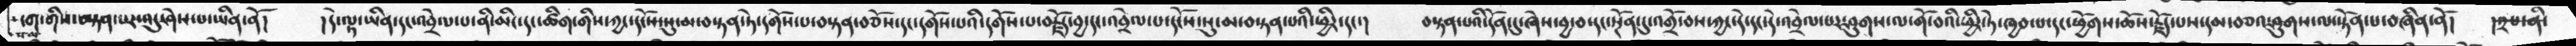པ་ལ་ངག་གིས་བསྟན་པར་འདུ་ཤེས་པ་ཡིན་ནོ།    །དེ་ལྟ་ཡིན་དང་འབྲེལ་པ་ནི་མིང་དང་ཚིག་གིས་ཀྱང་དངོས་སུ་མ་བསྟན་ཏེ་དགོས་པ་བསྟན་བཅོས་དང་དགོས་པའི་དགོས་པ་བརྗོད་བྱ་དང་འབྲེལ་པ་དངོས་སུ་མ་བསྟན་པའི་ཕྱིར་དང་།    བསྟན་པའི་དོན་དུ་ཞེས་བྱ་བ་དང་སྔོན་དུ་འགྲོ་བས་ཀྱང་དེ་དང་དེ་འབྲེལ་པར་ཤུགས་ལ་གོ་བའི་ཕྱིར་ཏེ་ཁྱབ་པ་དང་ཕྱོགས་ཆོས་རྗོད་པས་དམ་བཅའ་ཤུགས་ལ་སྟོན་པ་བཞིན་ནོ།   །༢་པ་ནི་
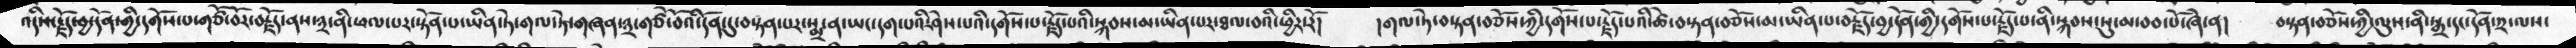འདིས་རྗོད་བྱ་དོན་གྱི་དགོས་པ་གཙོ་བོར་བརྗོད་ནས་༣་ནི་ཕལ་པར་སྟོན་པ་ཡིན་ཏེ་གལ་ཏེ་གཞན་༣་གཙོ་བོའི་དོན་དུ་བསྟན་པར་སྨྲ་ན་ཡང་དག་པའི་ཤེས་པའི་དགོས་པ་རྗོད་པའི་སྐབས་མ་ཡིན་པར་ཐལ་བའི་ཕྱིར་རོ།   །གལ་ཏེ་བསྟན་བཅོས་ཀྱི་དགོས་པ་རྗོད་པའི་ཚེ་བསྟན་བཅོས་མ་ཡིན་པ་བརྗོད་བྱ་དོན་གྱི་རྗོད་པ་ནི་སྐབས་སུ་མ་བབ་པོ་ཞེ་ན།   བསྟན་བཅོས་ཀྱི་ལུས་ནི་སྒྲ་དང་དོན་༢་ལས་
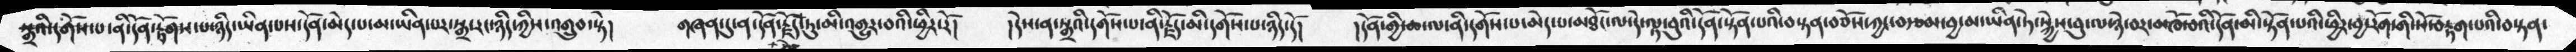སྒྲའི་དགོས་པ་ནི་དོན་རྟོགས་པ་ཉིད་ཡིན་པས་དོན་མེད་པ་མ་ཡིན་པར་སྒྲ་རང་ཉིད་ཀྱིས་འགྲུབ་སྟེ།   གཞན་དུ་ན་དོན་རྗོད་ཏུ་མི་འགྱུར་བའི་ཕྱིར་རོ།   །དེས་ན་སྒྲའི་དགོས་པ་ནི་རྗོད་མི་དགོས་པ་ཉིད་དོ།   །དོན་གྱི་ཆ་ལ་ནི་དགོས་པ་མེད་པ་མཐོང་ལ་ལྟ་བུའི་དོན་སྟོན་པའི་བསྟན་བཅོས་ཀྱང་བརྩམ་བྱ་མ་ཡིན་ཏེ་སྐྱེས་བུ་ལ་ཉེ་བར་མཁོ་བའི་དོན་མི་སྟོན་པའི་ཕྱིར་བྱ་རོག་གི་སོ་བརྟག་པའི་བསྟན་
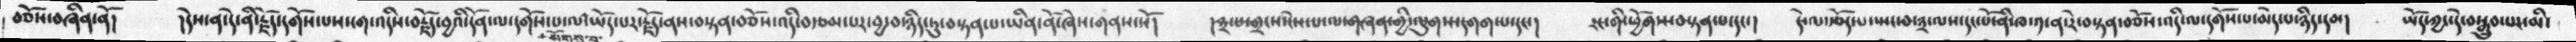བཅོས་བཞིན་ནོ།   །དེས་ན་དེ་ནི་རྗོད་དགོས་པས་ངག་འདིས་བརྗོད་བྱའི་དོན་ལ་དགོས་པ་ལ་སོགས་པ་ཡོད་པར་རྗོད་ནས་བསྟན་བཅོས་འདི་བརྩམ་པར་བྱ་བ་ཉིད་ཏུ་བསྟན་པ་ཡིན་ནོ་ཞེས་གནས་སོ།   །༣་པ་གྲངས་ངེས་པ་ལ་གཞན་གྱི་ལུགས་དགག་པ་དང་།    རང་གི་ཕྱོགས་བསྟན་པ་དང་།   དེ་ལ་རྩོད་པ་སྤང་བ་༣་ལས་དང་པོ་ནི་ཁ་༡་ན་རེ་བསྟན་བཅོས་འདི་ལ་དགོས་པ་མེད་པ་ཉིད་དམ།   ཡོད་ཀྱང་དེ་བསྒྲུབ་པར་མི་
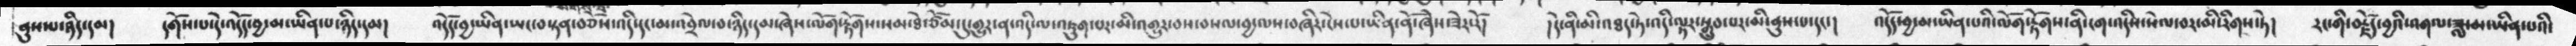ནུས་པ་ཉིད་དམ།   དགོས་པ་དེ་འདོད་བྱ་མ་ཡིན་པ་ཉིད་དམ།   འདོད་བྱ་ཡིན་ཡང་བསྟན་བཅོས་འདི་དང་མ་འབྲེལ་བ་ཉིད་དམ་ཞེས་ལོག་རྟོགས་སམ་ཐེ་ཙོམ་དུ་གྱུར་ན་འདི་ལ་འཇུག་པར་མི་འགྱུར་བས་བསལ་བྱ་ལས་བཞིར་ངེས་པ་ཡིན་ནོ་ཞེས་ཟེར་རོ།   །དེ་ནི་མི་འཐད་ཏེ་འདི་ལྟར་སྒྲུབ་པར་མི་ནུས་པ་དང་།   འདོད་བྱ་མ་ཡིན་པའི་ལོག་རྟོགས་ནི་ངག་འདིས་སེལ་བར་མི་རིགས་ཏེ།   རང་གི་བརྗོད་བྱའི་འགལ་ཟླ་མ་ཡིན་པའི་
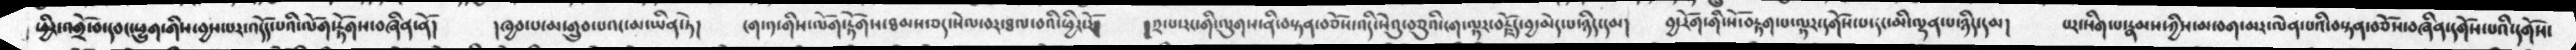ཕྱིར་འགྲོ་བ་དབང་ཕྱུག་གིས་བྱས་པར་འདོད་པའི་ལོག་རྟོགས་བཞིན་ནོ།   །ཁྱབ་པ་མ་གྲུབ་པའང་མ་ཡིན་ཏེ།   ངག་༡་གིས་ལོག་རྟོགས་ཐམས་ཅད་སེལ་བར་ཐལ་བའི་ཕྱིར་རོ།   །༢་པ་རང་གི་ལུགས་ནི་བསྟན་བཅོས་འདི་སེའུ་བཅུའི་ངག་ལྟར་བརྗོད་བྱ་མེད་པ་ཉིད་དམ།    བྱ་རོག་གི་སོ་བརྟག་པ་ལྟར་དགོས་པ་དང་མི་ལྡན་པ་ཉིད་དམ།   པར་སིག་པ་རྣམས་ཀྱིས་མ་བག་མར་ལེན་པའི་བསྟན་བཅོས་བཞིན་དགོས་པའི་དགོས་
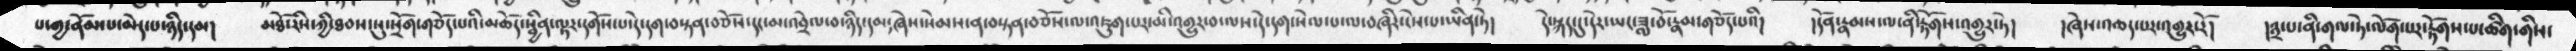པ་གྱ་ནོམ་པ་མེད་པ་ཉིད་དམ།   མཐོ་རིས་ཀྱི་ཐབས་སུ་སྲོག་གཅོད་པའི་མཆོད་སྦྱིན་ལྟར་དགོས་པ་དེ་དག་བསྟན་བཅོས་དང་མ་འབྲེལ་བ་ཉིད་དམ༴ཞེས་སེམས་ན་བསྟན་བཅོས་ལ་འཇུག་པར་མི་འགྱུར་བ་ལས་དེ་དག་སེལ་པ་ལ་བཞིར་ངེས་པ་ཡིན་ཏེ།   དེ་སྐད་དུ་དེར་ཡང་ཟླ་བོ་རྣམ་གཅོད་པའི།   །དོན་རྣམས་ལ་ནི་རྟོགས་འགྱུར་ཏེ།   །ཞེས་འཆད་པར་འགྱུར་རོ།   །༣་པ་ནི་གལ་ཏེ་ལོག་པར་རྟོགས་པ་ཚིག་གིས་
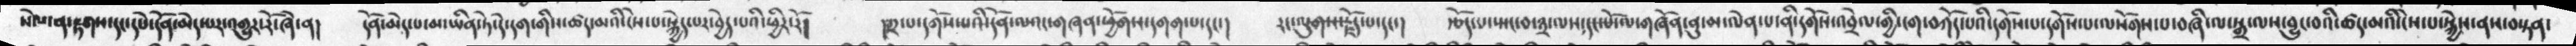སེལ་ན་རྟགས་དང་དཔེ་དོན་མེད་པར་འགྱུར་རོ་ཞེ་ན།   དོན་མེད་པ་མ་ཡིན་ཏེ་དེ་དག་གིས་ཚད་མའི་ངེས་པ་སྐྱེད་པར་བྱེད་པའི་ཕྱིར་རོ།     །༢་པ་དགོས་པའི་དོན་ལའང་གཞན་ཕྱོགས་དགག་པ་དང་།   རང་ལུགས་རྗོད་པ་དང་།   རྩོད་པ་སྤང་བ་༣་ལས་དང་པོ་ལ་གཞོན་ནུ་མ་ལེན་པ་ནི་དགོས་འབྲེལ་གྱི་ངག་བཀོད་པའི་དགོས་པ་དགོས་པ་ལསོགས་བཞི་ལ་སྒྲ་ལས་བྱུང་བའི་ཚད་མའི་ངེས་པ་སྐྱེས་ནས་བསྟན་
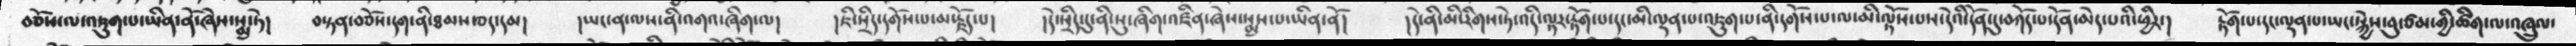བཅོས་ལ་འཇུག་པ་ཡིན་ནོ་ཞེས་སྨྲ་ཏེ།   བསྟན་བཅོས་དག་ནི་ཐམས་ཅད་དམ།   །ཡང་ན་ལས་ནི་འགའ་ཞིག་ལ།   །ཇི་སྲིད་དགོས་པ་མ་རྗོད་པ།   །དེ་སྲིད་དུ་ནི་སུ་ཞིག་འཛིན་ཞེས་སྨྲས་པ་ཡིན་ནོ།   །དེ་ནི་མི་རིགས་ཏེ་འདི་ལྟར་རྟོག་པ་དང་མི་ལྡན་པ་འཇུག་པ་ནི་དགོས་པ་ལ་མི་ལྟོས་པས་དེའི་དོན་དུ་བཀོད་པ་དོན་མེད་པའི་ཕྱིར་།   རྟོག་པ་དང་ལྡན་པ་ཡང་སྐྱེས་བུ་ཙམ་གྱི་ཚིག་ལ་འཁྲུལ་
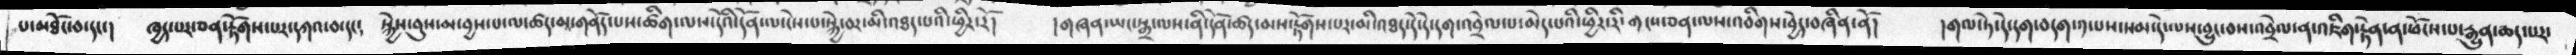པ་མཐོང་བ་དང་།   ཁྱད་པར་ཅན་་རྟོགས་པར་དཀའ་བ་དང༴  སྐྱེས་བུས་མ་བྱས་པ་ལ་ཚད་མ་གནོད་པས་ཚིག་ལ་དེའི་དོན་ལ་ངེས་པ་སྐྱེ་བར་མི་འཐད་པའི་ཕྱིར་རོ།   །གཞན་ཡང་སྒྲ་ལས་ནི་དོན་ཚད་མས་རྟོགས་པར་མི་འཐད་དེ་དེ་དག་འབྲེལ་པ་མེད་པའི་ཕྱིར་རི་གངས་ཅན་ལས་འབིགས་བྱེད་བཞིན་ནོ།   །གལ་ཏེ་དེ་དག་བདག་༡་པས་སམ་དེ་ལས་བྱུང་བས་འབྲེལ་ན་འཇིག་རྟེན་ན་ཕོངས་པ་རྒྱུན་ཆད་པར་
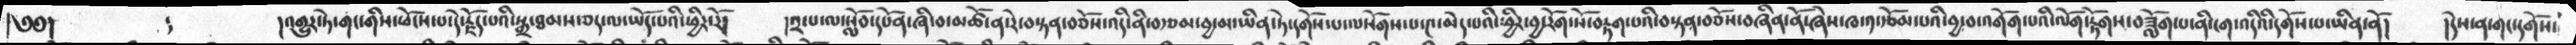༄༅།    ༴  །འགྱུར་ཏེ་གང་གིས་ཕོངས་པ་དེ་རྗོད་པའི་སྒྲ་ཐམས་ཅད་ལ་ཡོད་པའི་ཕྱིར་རོ།   །༢་པ་ལ་སློབ་དཔོན་ཞི་བ་མཚོ་ན་རེ་བསྟན་བཅོས་འདི་ནི་བརྩམ་བྱ་མ་ཡིན་ཏེ་དགོས་པ་ལསོགས་པ་༤་མེད་པའི་ཕྱིར་བྱ་རོག་སོ་བརྟག་པའི་བསྟན་བཅོས་བཞིན་ནོ་ཞེས་ཁ་༡་རྩོམ་པའི་བྱ་བ་འགོག་པའི་ལོག་རྟོགས་བཟློག་པ་ནི་ངག་འདིའི་དགོས་པ་ཡིན་ནོ།   །དེས་ན་གང་དགོས་
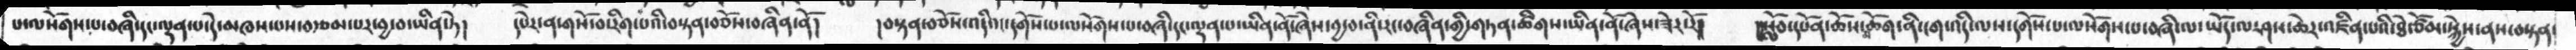པ་ལསོགས་པ་བཞི་དང་ལྡན་པ་དེ་མཁས་པས་བརྩམ་པར་བྱ་བ་ཡིན་ཏེ།  དཔེར་ན་གསོ་བ་རིག་པའི་བསྟན་བཅོས་བཞིན་ནོ།  །བསྟན་བཅོས་འདིའང་དགོས་པ་ལསོགས་པ་བཞི་དང་ལྡན་པ་ཡིན་ནོ་ཞེས་བྱ་བ་ནི་རང་བཞིན་གྱི་གཏན་ཚིགས་ཡིན་ནོ་ཞེས་ཟེར་རོ།།  །།སློབ་དཔོན་ཆོས་མཆོག་ནི་ངག་འདི་ལས་དགོས་པ་ལསོགས་པ་བཞི་ལ་ཡོད་ལ་ཤས་ཆེར་འཛིན་པའི་ཐེ་ཙོམ་སྐྱེས་ནས་བསྟན་
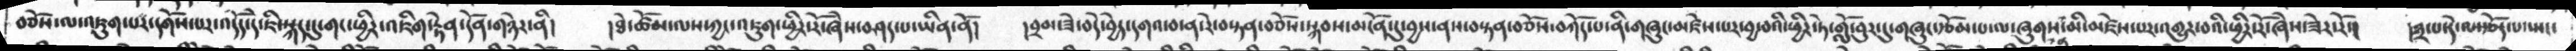བཅོས་ལ་འཇུག་པར་དགོས་པར་འདོད་དེ་ཇི་སྐད་དུ་གང་ཕྱིར་འཇིག་རྟེན་དོན་གཉེར་ནི།   །ཐེ་ཚོམ་ལས་ཀྱང་འཇུག་ཕྱིར་རོ་ཞེས་བཤད་པ་ཡིན་ནོ།   །བྲམ་ཟེ་བདེ་བྱེད་དགའ་བ་ན་རེ་བསྟན་བཅོས་སྐབས་མངོན་དུ་བྱས་ནས་བསྟན་བཅོས་བཀོད་པ་ནི་གཞུང་མཛེས་པར་བྱ་བའི་ཕྱིར་ཏེ་གློ་བུར་དུ་གཞུང་རྩོམ་པ་ལ་ཞུགས་མི་མཛེས་པར་འགྱུར་བའི་ཕྱིར་རོ་ཞེས་ཟེར་རོ་།   ་༣་པ་དེ་ལ་རྩོད་པ་སྤང་
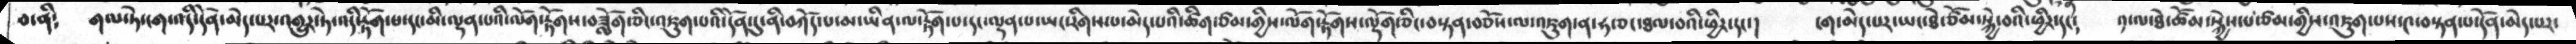བ་ནི༴    གལ་ཏེ་ངག་འདི་དོན་མེད་པར་འགྱུར་ཏེ་འདི་རྟོག་པ་དང་མི་ལྡན་པའི་ལོག་རྟོགས་བཟློག་ཅིང་འཇུག་པའི་དོན་དུ་ནི་བཀོད་པ་མ་ཡིན་ལ་རྟོག་པ་དང་ལྡན་པ་ཡང་རིགས་པ་མེད་པའི་ཚིག་ཙམ་གྱིས་ལོག་རྟོགས་ལྡོག་ཅིང་བསྟན་བཅོས་ལ་འཇུག་ན་ཧ་ཅང་ཐལ་བའི་ཕྱིར་དང་།   ངག་མེད་པར་ཡང་ཐེ་ཙོམ་སྐྱེ་བའི་ཕྱིར་དང༴   ༡་ལ་ཐེ་ཚོམ་སྐྱེས་པ་ཙམ་གྱིས་འཇུག་པས་༤་བསྟན་པ་དོན་མེད་པར་
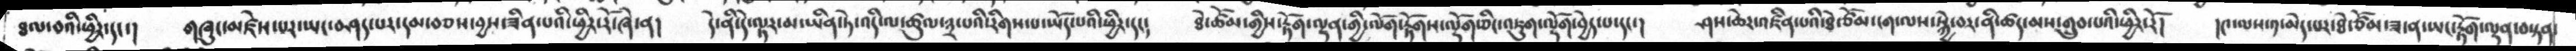ཐལ་བའི་ཕྱིར་དང་།   གཞུང་མཛེས་པར་ཡང་བཤད་པར་དམ་བཅས་བྱས་ཟིན་པའི་ཕྱིར་རོ་ཞེ་ན།   དེ་ནི་ད་ེལྟར་མ་ཡིན་ཏེ་འདི་ལ་ཚུལ་༣་པའི་རིགས་པ་ཡོད་པའི་ཕྱིར་དང༴   ཐེ་ཚོམ་གྱིས་རྟོག་ལྡན་གྱི་ལོག་རྟོགས་ལྡོག་ཅིང་འཇུག་ལྡོག་བྱེད་པ་དང་།   ཤས་ཆེར་འཛིན་པའི་ཐེ་ཙོམ་ངག་ལས་སྐྱེ་བར་ནི་ཚད་མས་གྲུབ་པའི་ཕྱིར་རོ།   །༤་ལས་༡་མེད་པར་ཐེ་ཙོམ་ཟ་ན་ཡང་རྟོག་ལྡན་བསྟན་
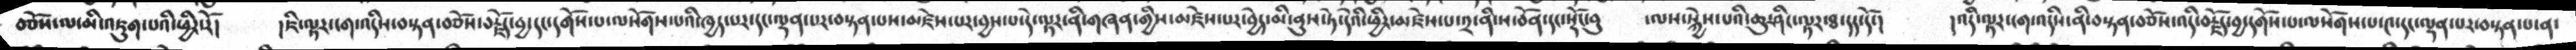བཅོས་ལ་མི་འཇུག་པའི་ཕྱིར་རོ།   །ཇི་ལྟར་ངག་འདིས་བསྟན་བཅོས་བརྗོད་བྱ་དང་དགོས་པ་ལསོགས་པའི་ཁྱད་པར་དང་ལྡན་པར་བསྟན་པས་མཛེས་པར་བྱས་པ་དེ་ལྟར་ནི་གཞན་གྱིས་མཛེས་པར་བྱེད་མི་ནུས་ཏེ་དེའི་ཕྱིར་མཛེས་པ་༢་ནི་ས་བོན་དང་སྡོང་བུ    ་ལས་སྐྱེས་པའི་ཆུ་ཤིང་ལྟར་ཐ་དད་དོ་།   །འདི་ལྟར་ངག་འདིས་ནི་བསྟན་བཅོས་འདི་བརྗོད་བྱ་དགོས་པ་ལསོགས་པ་༤་རང་ལྡན་པར་བསྟན་པ་ན་
